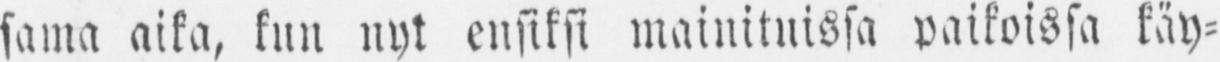sama aika, kun nyt ensiksi mainituissa paikoissa käy-
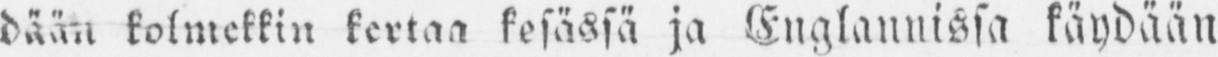dään kolmekkin kertaa kesässä ja Englannista käydään
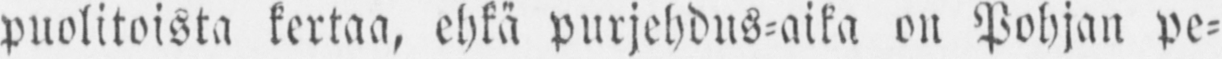puolitoista kertaa, ehkä purjehdus-aika on Pohjan pe-
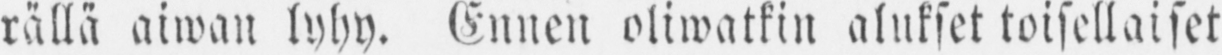rällä aiwan lyhy. Ennen oliwatkin alukset toisellaiset
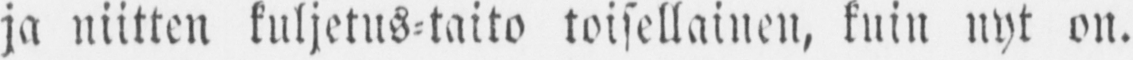ja niitten kuljetus-taito toisellainen, kuin nyt on. —
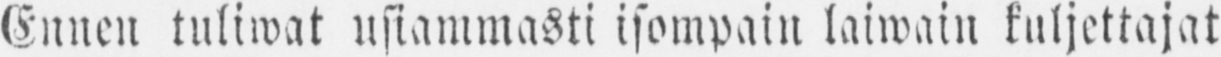Ennen tuliwat usiammasti isompain laiwain kuljettajat
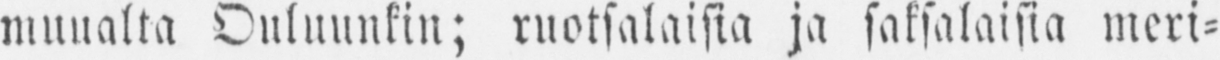muualta Ouluunkin; ruotsalaisia ja saksalaisia meri-
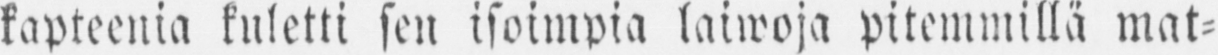kapteenia kuletti sen isoimpia laiwoja pitemmillä mat-
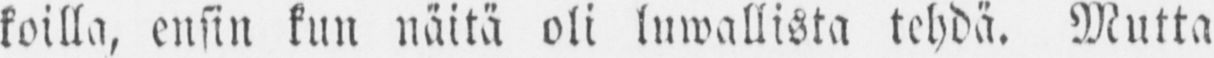koilla, ensin kun näitä oli luwallista tehdä. Mutta
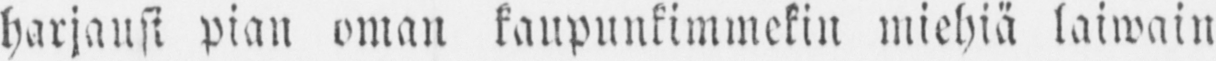harjausi pian oman kaupunkimmekin miehiä laiwain
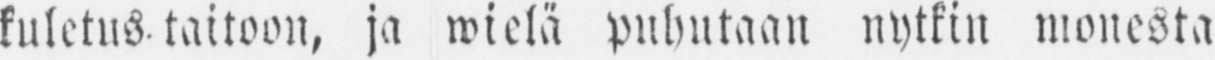kuletus taitoon, ja wielä puhutaan nytkin monesta
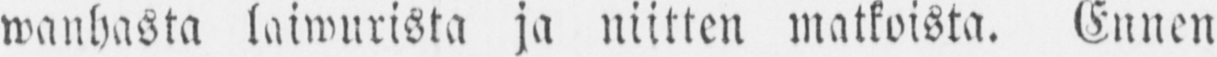wanhasta laiwurista ja niitten matkoista. Ennen
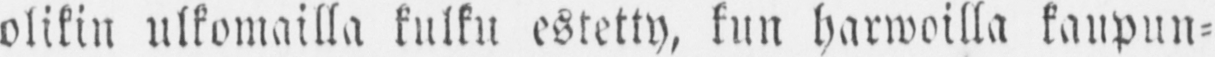olikin ulkomailla kulku estetty, kun Harwoilla kaupun-
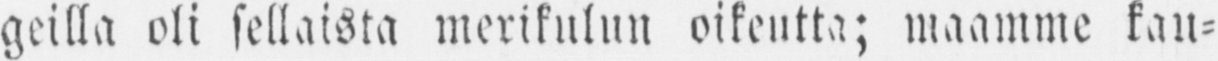geilla oli sellaista merikulun oikeutta; maamme kau-
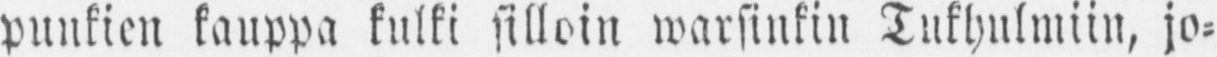punkien kauppa kulki silloin warsinkin Tukhulmiin, jo-
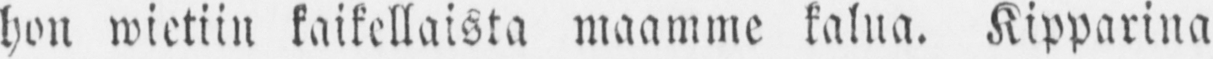hon wietiin kaikellaista maamme kalua. Kipparina
